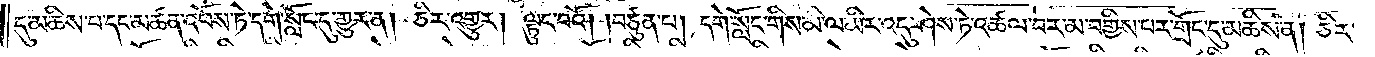དུ་མཆིས་པ་དང་མཚན་འཕོས་ཏེ་དགེ་སློང་དུ་གྱུར་ན། ཅིར་འགྱུར། ལྟུང་བའོ། །བཙུན་པ། དགེ་སློང་གིས་མི་ལ་མིར་འདུ་ཤེས་ཏེ་འཚལ་བར་མ་བགྱིས་པར་གྲོང་དུ་མཆིས་ན། ཅིར་
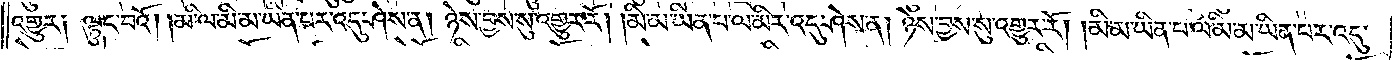འགྱུར༑ ལྟུང་བའོ། །མི་ལ་མི་མ་ཡིན་པར་འདུ་ཤེས་ན། ཉེས་བྱས་སུ་འགྱུར་རོ། །མི་མ་ཡིན་པ་ལ་མིར་འདུ་ཤེས་ན། ཉེས་བྱས་སུ་འགྱུར་རོ། །མི་མ་ཡིན་པ་ལ་མི་མ་ཡིན་པར་འདུ་
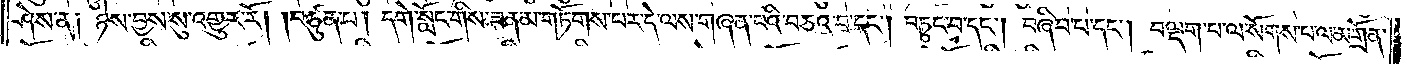ཤེས་ན༑ ཉེས་བྱས་སུ་འགྱུར་རོ། །བཙུན་པ། དགེ་སློང་གིས་ཟན་མ་གཏོགས་པར་དེ་ལས་གཞན་པའི་བཅའ་བ་དང༌། བཏུང་བ་དང༌། བཞིབ་པ་དང༌། བལྡག་པ་ལ་སོགས་པ་ལ་མགྲོན་
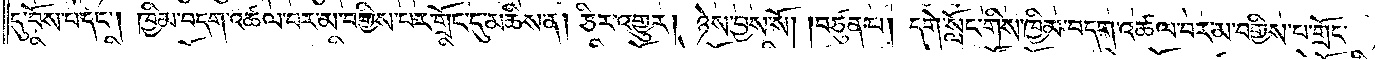དུ་བོས་པ་དང༌། ཁྱིམ་བདག་འཚལ་བར་མ་བགྱིས་པར་གྲོང་དུ་མཆིས་ན། ཅིར་འགྱུར། ཉེས་བྱས་སོ། །བཙུན་པ། དགེ་སློང་གིས་ཁྱིམ་བདག་འཚལ་བར་མ་བགྱིས་པ་གྲོང་
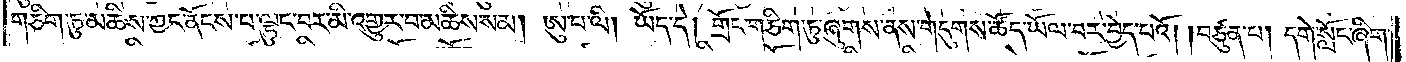གཅིག་ཏུ་མཆིས་ཀྱང་ནོངས་པ་ལྟུང་བར་མི་འགྱུར་བ་མཆིས་སམ། ཨུ་པ་ལི། ཡོད་དེ། གྲོང་གཅིག་ཏུ་ཞུགས་ནས་གདུགས་ཚོད་ཡོལ་བར་བྱེད་པའོ། །བཙུན་པ། དགེ་སློང་ཞིག་
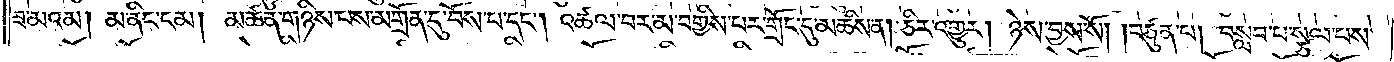ཟ་མའམ། མ་ནིང་ངམ། མཚན་གཉིས་པས་མགྲོན་དུ་བོས་པ་དང༌། འཚལ་བར་མ་བགྱིས་པར་གྲོང་དུ་མཆིས་ན། ཅིར་འགྱུར། ཉེས་བྱས་སོ། །བཙུན་པ། བསླབ་པ་སྩལ་པས་
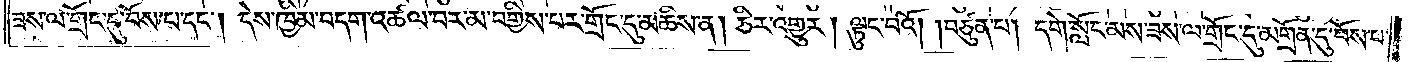ཟས་ལ་གྲོང་དུ་བོས་པ་དང༌། དེས་ཁྱིམ་བདག་འཚལ་བར་མ་བགྱིས་པར་གྲོང་དུ་མཆིས་ན། ཅིར་འགྱུར། ལྟུང་བའོ། །བཙུན་པ། དགེ་སློང་མས་ཟས་ལ་གྲོང་དུ་མགྲོན་དུ་བོས་པ་
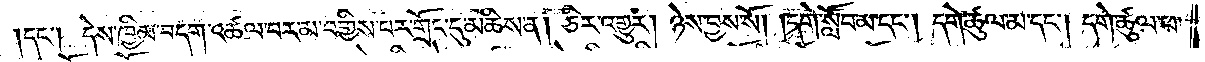།དང༌། དེས་ཁྱིམ་བདག་འཚལ་བར་མ་བགྱིས་པར་གྲོང་དུ་མཆིས་ན། ཅིར་འགྱུར། ཉེས་བྱས་སོ། །དགེ་སློབ་མ་དང༌། དགེ་ཚུལ་མ་དང༌། དགེ་ཚུལ་ཕ་
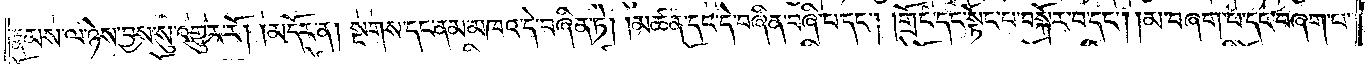རྣམས་ལ་ཉེས་བྱས་སུ་འགྱུར་རོ།    །མདོར་ན། སྔགས་དང་ནམ་མཁའ་དེ་བཞིན་ཏེ། །མཚན་དང་དེ་བཞིན་བཞི་པ་དང༌། །གྲོང་དང་སྟོང་པ་བསྐོར་བ་དང༌། །མ་བཞག་པ་དང་བཞག་པ་
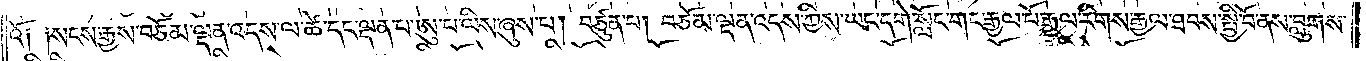འོ༑ ༑སངས་རྒྱས་བཅོམ་ལྡན་འདས་ལ་ཚེ་དང་ལྡན་པ་ཨུ་པ་ལིས་ཞུས་པ། བཙུན་པ། བཅོམ་ལྡན་འདས་ཀྱིས་ཡང་དགེ་སློང་གང་རྒྱལ་པོ་རྒྱལ་རིགས་རྒྱལ་ཐབས་སྤྱི་བོ་ནས་བླུགས་
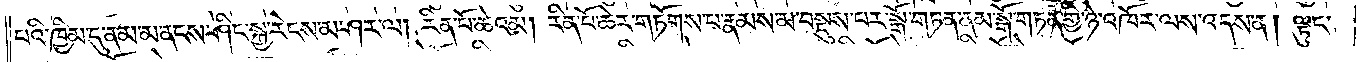པའི་ཁྱིམ་དུ་ནམ་མ་ནངས་ཤིང་སྐྱ་རེངས་མ་ཤར་ལ། རིན་པོ་ཆེའམ། རིན་པོ་ཆེར་གཏོགས་པ་རྣམས་མ་བསྡུས་པར་སྒོ་གཏན་ནམ་སྒོ་གཏན་གྱི་ཉེ་འཁོར་ལས་འདས་ན། ལྟུང་
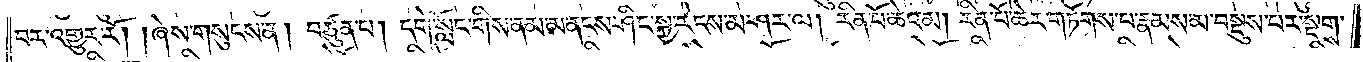བར་འགྱུར་རོ། །ཞེས་གསུངས་ན། བཙུན་པ། དགེ་སློང་གིས་ནམ་མ་ནངས་ཤིང་སྐྱ་རེངས་མ་ཤར་ལ། རིན་པོ་ཆེའམ། རིན་པོ་ཆེར་གཏོགས་པ་རྣམས་མ་བསྡུས་པར་སྔགས་
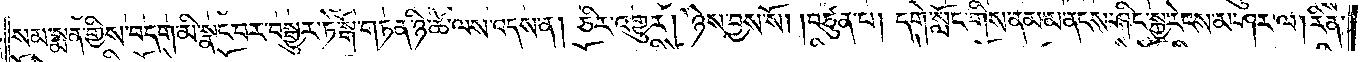སམ་སྨན་གྱིས་བདག་མི་སྣང་བར་བསྒྱུར་ཏེ་སྒོ་གཏན་ཉི་ཚེ་ལས་འདས་ན། ཅིར་འགྱུར། ཉེས་བྱས་སོ། །བཙུན་པ། དགེ་སློང་གིས་ནམ་མ་ནངས་ཤིང་སྐྱ་རེངས་མ་ཤར་ལ། རིན་
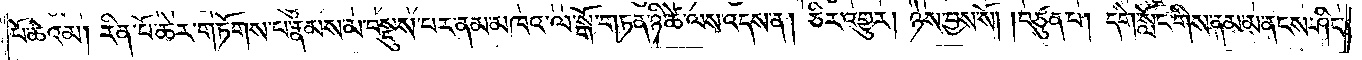པོ་ཆེའམ། རིན་པོ་ཆེར་གཏོགས་པ་རྣམས་མ་བསྡུས་པར་ནམ་མཁའ་ལ་སྒོ་གཏན་ཉི་ཚེ་ལས་འདས་ན། ཅིར་འགྱུར། ཉེས་བྱས་སོ། །བཙུན་པ། དགེ་སློང་གིས་ནམ་མ་ནངས་ཤིང་
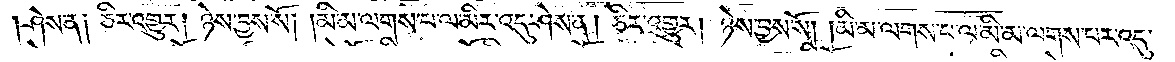།ཤེས་ན༑ ཅིར་འགྱུར། ཉེས་བྱས་སོ། །མི་མ་ལགས་པ་ལ་མིར་འདུ་ཤེས་ན། ཅིར་འགྱུར། ཉེས་བྱས་སོ། །མི་མ་ལགས་པ་ལ་མི་མ་ལགས་པར་འདུ་
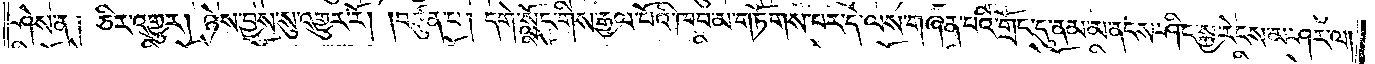ཤེས་ན། ཅིར་འགྱུར། ཉེས་བྱས་སུ་འགྱུར་རོ། །བཙུན་པ། དགེ་སློང་གིས་རྒྱལ་པོའི་ཁབ་མ་གཏོགས་པར་དེ་ལས་གཞན་པའི་གྲོང་དུ་ནམ་མ་ནངས་ཤིང་སྐྱ་རེངས་མ་ཤར་ལ།
